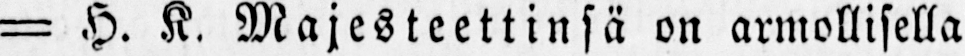— H. K. Majesteettinsä on armollisella
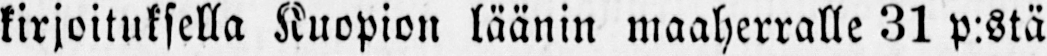kirjoituksella Kuopion läänin maaherralle 31 p:stä
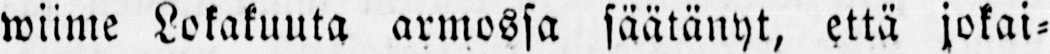wiime Lokakuuta armossa säätänyt, että jokai-
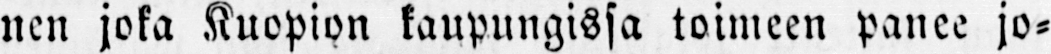nen joka Kuopion kaupungissa toimeen panee jo-
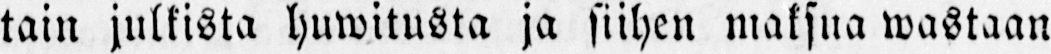tain julkista huwitusta ja siihen maksua wastaan
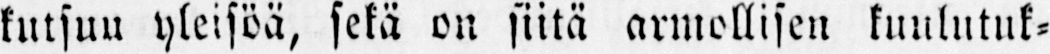kutsuu yleisöä, sekä on siitä armollisen kuulutuk-
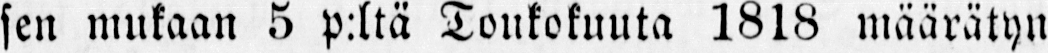sen mukaan 5 p:ltä Toukokuuta 1818 määrätyn
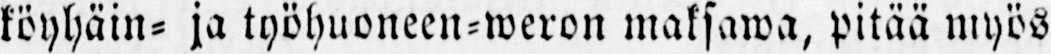köyhäin- ja työhuoneen-weron maksawa, pitää myös
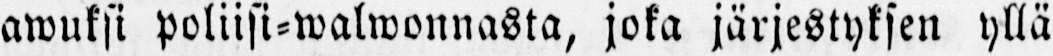awuksi poliisi-walwonnasta, joka järjestyksen yllä
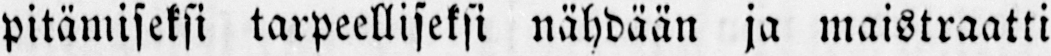pitämiseksi tarpeelliseksi nähdään ja maistraatti
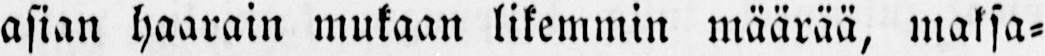asian haarain mukaan likemmin määrää, maksa-
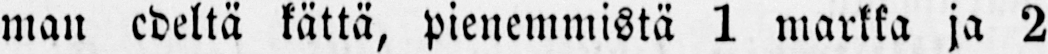man edeltä kättä, pienemmistä 1 markka ja 2
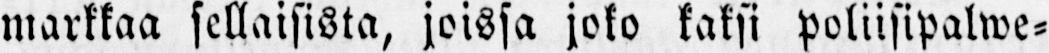markkaa sellaisista, joissa joko kaksi poliisipalwe-
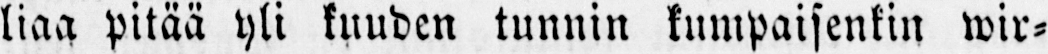liaa pitää yli kuuden tunnin kumpaisenkin wir-
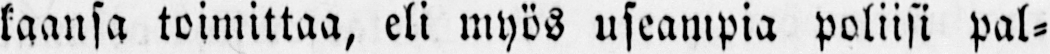kaansa toimittaa, eli myös useampia poliisi pal-
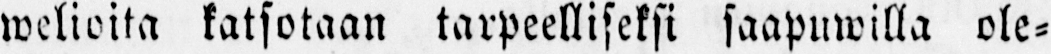welioita katsotaan tarpeelliseksi saapuwilla ole-
